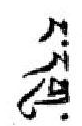ང་དགུ་
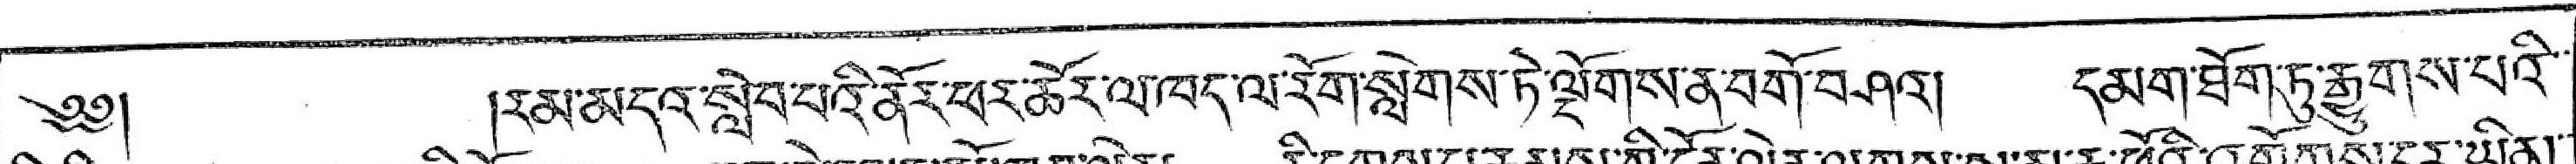༄༅།  །རམ་མདའ་སླེབ་པའི་ནོར་ཕར་ཆོར་ལ་ཁད་ལ་རོག་སླེགས་ཏེ་ལྔོགས་ན་བགོ་བཤའ། དམག་ཐོག་ཏུ་རྒྱུགས་པའི་་
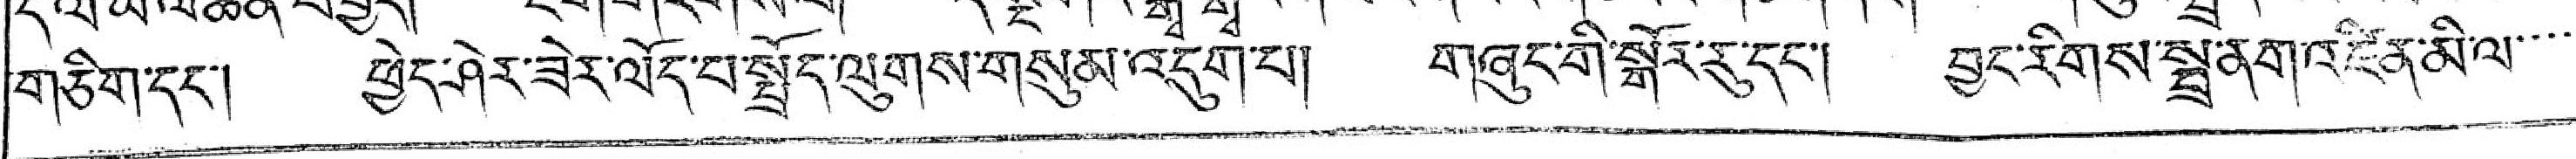གཅིག་དང་། ཕྱེད་ཤེར་ཟེར་ལོད་པ་སྤྲོད་ལུགས་གསུམ་འདུག་པ། གཞུང་གི་སྒོར་རུ་དང་། བྱང་རིགས་སྦྲ་ནག་འཛིན་མི་ལ་་་་་
